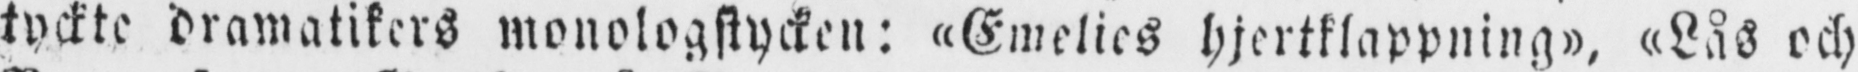tyckte dramatikers monologstycken: «Emelies hjertklappning», «Lås och
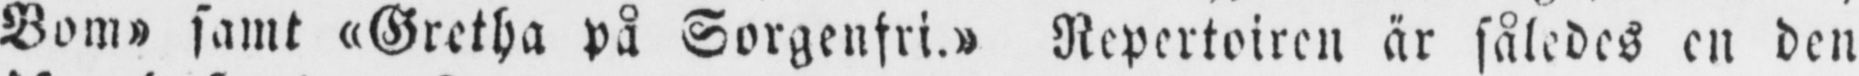Bom» samt »Gretha på Sorgenfri.» Repertoiren är således en den
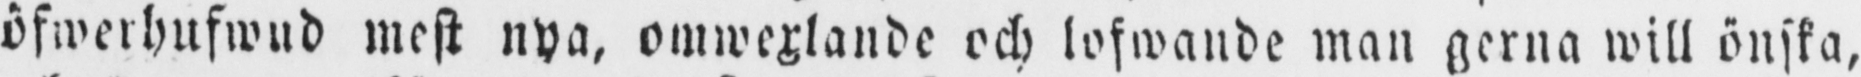öfwerhufwud mest nya, omwexlande och lofwande man gerna will önska,
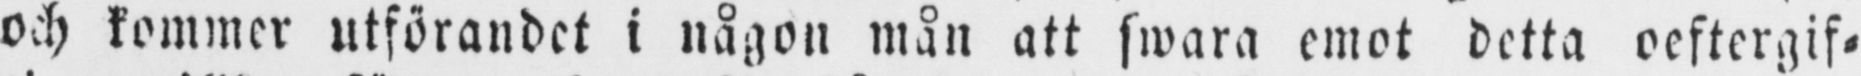och kommer utförandet i någon mån att swara emot detta oeftergif-
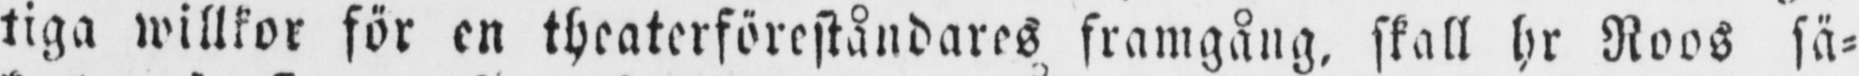tiga willkor för en theaterföreståndares framgång, skall hr Roos sä-
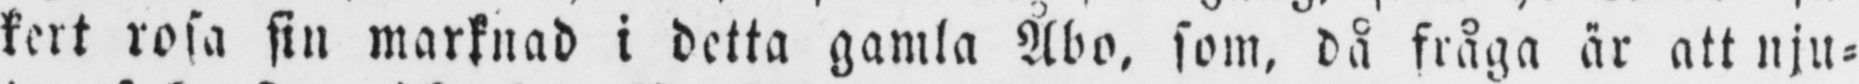kert rosa sin marknad i detta gamla Åbo, som, då fråga är att nju-
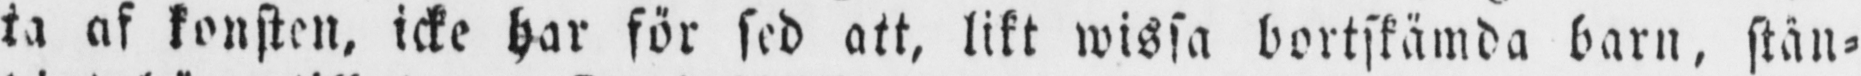ta af konsten, icke har för sed att, likt wissa bortskämda barn, stän-
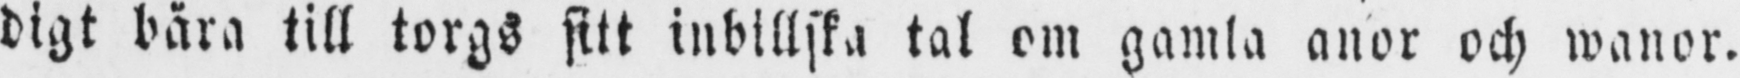digt bära till torgs sitt inbillska tal om gamla anor och wanor.
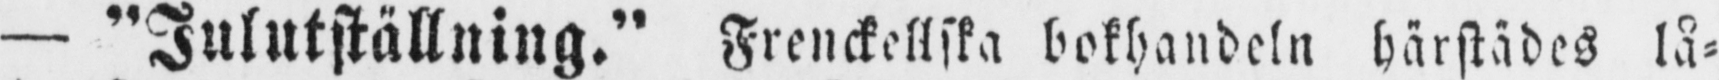— "Julutställning." Frenckellska bokhandeln härstädes lå-
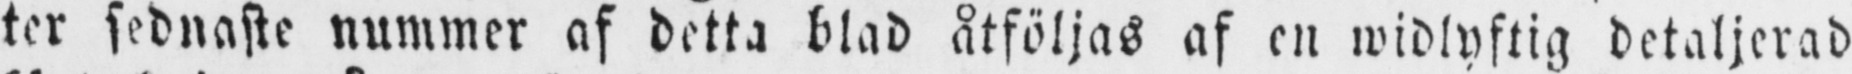ter sednaste nummer af detta blad åtföljas af en »vidlyftig detaljerad
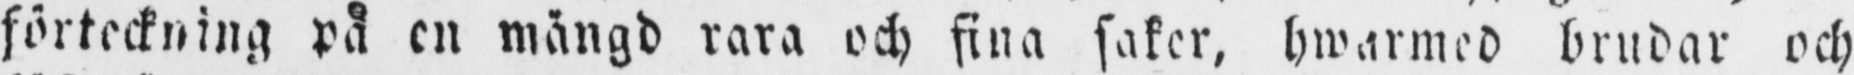förteckning på en mängd rara och fina saker, hwarmed brudar och
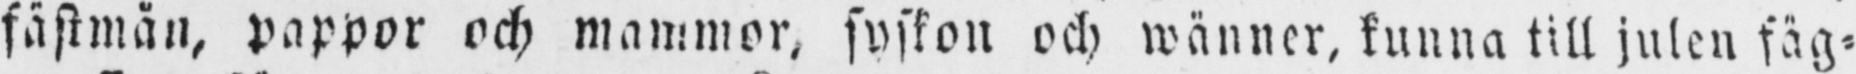fästmän, pappor och mammor, syskon och männer, kunna till julen fäg-
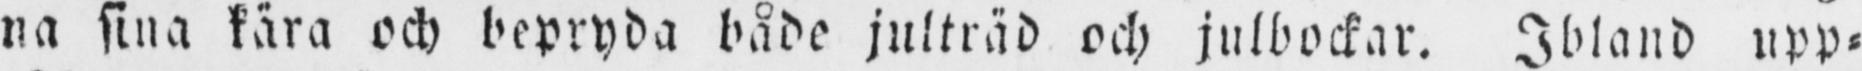na sina kära och bepryda både julträd och julbockar. Ibland upp-
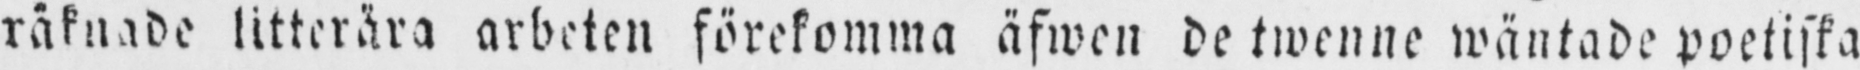räknade litterära arbeten förekomma äfwen de twenne wäntade poetiska
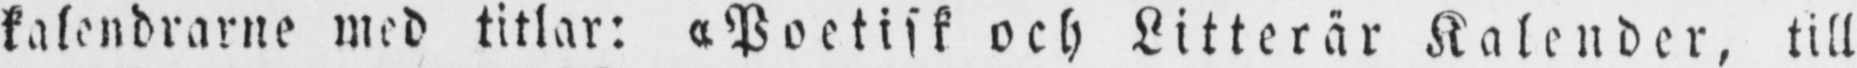kalendrarne med titlar: "Poetisk och Litterär Kalender, till
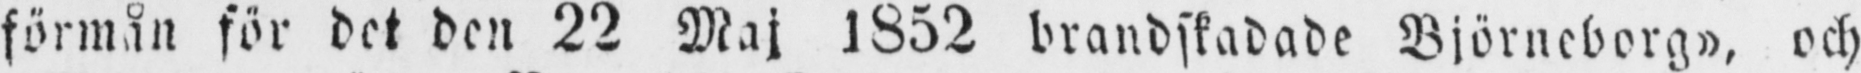förmån för det den 22 Maj 1852 brandskadade Björneborg», och
